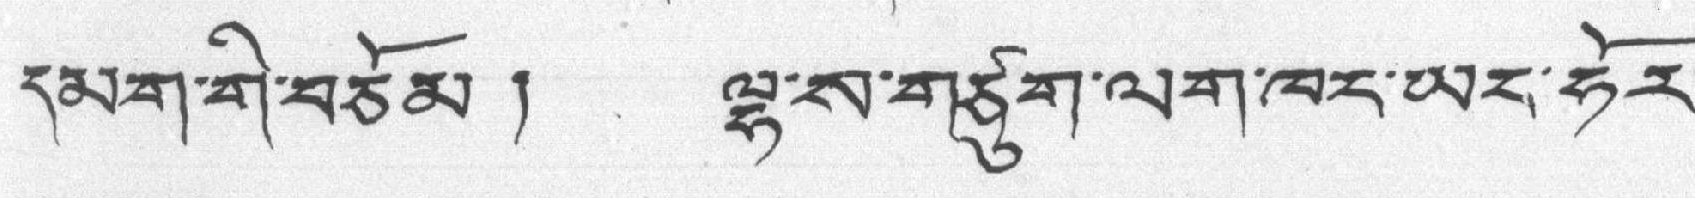དམག་གི་བཅོམ། ལྷ་ས་གཙུག་ལག་ཁར་ཡང་ཧོར་
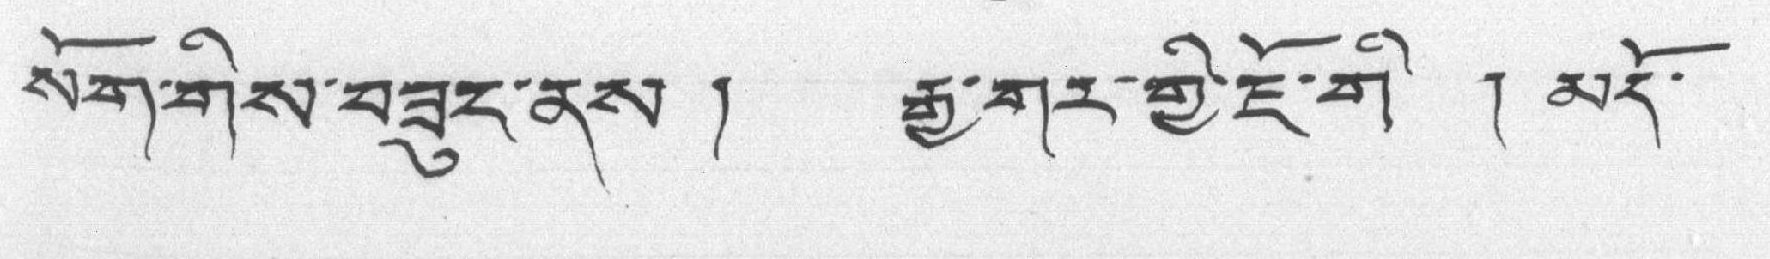སོག་གིས་བཟུང་ནས། རྒྱ་གར་གྱི་ཇོ་གི ། མདོ་
